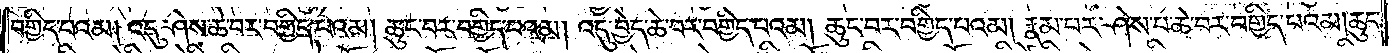བགྱིད་པའམ། འདུ་ཤེས་ཆེ་བར་བགྱིད་པའམ། ཆུང་བར་བགྱིད་པའམ། འདུ་བྱེད་ཆེ་བར་བགྱིད་པའམ། ཆུང་བར་བགྱིད་པའམ། རྣམ་པར་ཤེས་པ་ཆེ་བར་བགྱིད་པའམ། ཆུང་
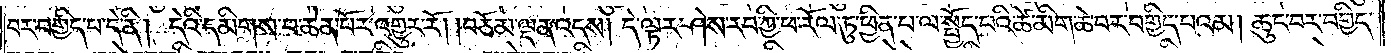བར་བགྱིད་པ་དེ་ནི། དེའི་དམིགས་པ་ཆེན་པོར་འགྱུར་རོ། །བཅོམ་ལྡན་འདས། དེ་ལྟར་ཤེས་རབ་ཀྱི་ཕ་རོལ་ཏུ་ཕྱིན་པ་ལ་སྤྱོད་པའི་ཚེ་མིག་ཆེ་བར་བགྱིད་པའམ། ཆུང་བར་བགྱིད་
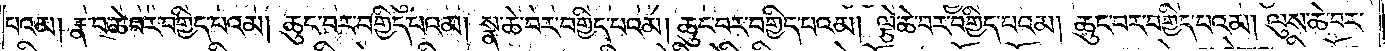པའམ། རྣ་བ་ཆེ་བར་བགྱིད་པའམ། ཆུང་བར་བགྱིད་པའམ། སྣ་ཆེ་བར་བགྱིད་པའམ། ཆུང་བར་བགྱིད་པའམ། ལྕེ་ཆེ་བར་བགྱིད་པའམ། ཆུང་བར་བགྱིད་པའམ། ལུས་ཆེ་བར་
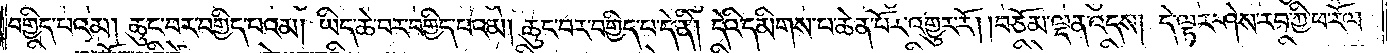བགྱིད་པའམ། ཆུང་བར་བགྱིད་པའམ། ཡིད་ཆེ་བར་བགྱིད་པའམ། ཆུང་བར་བགྱིད་པ་དེ་ནི། དེའི་དམིགས་པ་ཆེན་པོར་འགྱུར་རོ། །བཅོམ་ལྡན་འདས། དེ་ལྟར་ཤེས་རབ་ཀྱི་ཕ་རོལ་
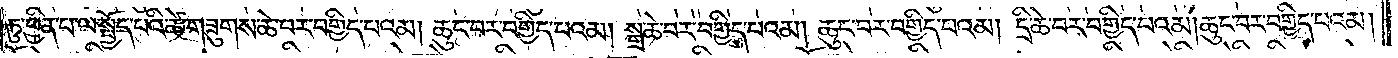ཏུ་ཕྱིན་པ་ལ་སྤྱོད་པའི་ཚེ་གཟུགས་ཆེ་བར་བགྱིད་པའམ། ཆུང་བར་བགྱིད་པའམ། སྒྲ་ཆེ་བར་བགྱིད་པའམ། ཆུང་བར་བགྱིད་པའམ། དྲི་ཆེ་བར་བགྱིད་པའམ། ཆུང་བར་བགྱིད་པའམ།
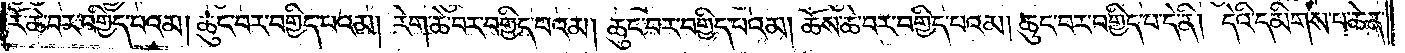རོ་ཆེ་བར་བགྱིད་པའམ། ཆུང་བར་བགྱིད་པའམ། རེག་ཆེ་བར་བགྱིད་པའམ། ཆུང་བར་བགྱིད་པའམ། ཆོས་ཆེ་བར་བགྱིད་པའམ། ཆུང་བར་བགྱིད་པ་དེ་ནི། དེའི་དམིགས་པ་ཆེན་
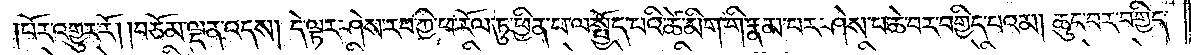པོར་འགྱུར་རོ། །བཅོམ་ལྡན་འདས། དེ་ལྟར་ཤེས་རབ་ཀྱི་ཕ་རོལ་ཏུ་ཕྱིན་པ་ལ་སྤྱོད་པའི་ཚེ་མིག་གི་རྣམ་པར་ཤེས་པ་ཆེ་བར་བགྱིད་པའམ། ཆུང་བར་བགྱིད་
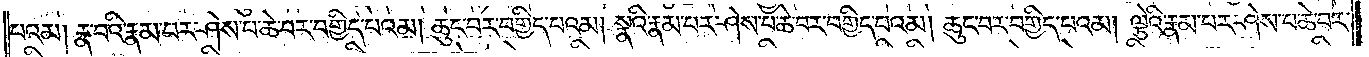པའམ། རྣ་བའི་རྣམ་པར་ཤེས་པ་ཆེ་བར་བགྱིད་པའམ། ཆུང་བར་བགྱིད་པའམ། སྣའི་རྣམ་པར་ཤེས་པ་ཆེ་བར་བགྱིད་པའམ། ཆུང་བར་བགྱིད་པའམ། ལྕེའི་རྣམ་པར་ཤེས་པ་ཆེ་བར་
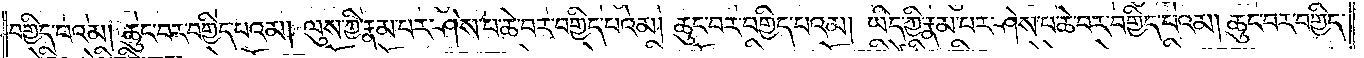བགྱིད་པའམ། ཆུང་བར་བགྱིད་པའམ། ལུས་ཀྱི་རྣམ་པར་ཤེས་པ་ཆེ་བར་བགྱིད་པའམ། ཆུང་བར་བགྱིད་པའམ། ཡིད་ཀྱི་རྣམ་པར་ཤེས་པ་ཆེ་བར་བགྱིད་པའམ། ཆུང་བར་བགྱིད་
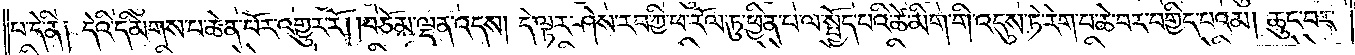པ་དེ་ནི༑ དེའི་དམིགས་པ་ཆེན་པོར་འགྱུར་རོ། །བཅོམ་ལྡན་འདས། དེ་ལྟར་ཤེས་རབ་ཀྱི་ཕ་རོལ་ཏུ་ཕྱིན་པ་ལ་སྤྱོད་པའི་ཚེ་མིག་གི་འདུས་ཏེ་རེག་པ་ཆེ་བར་བགྱིད་པའམ། ཆུང་བར་
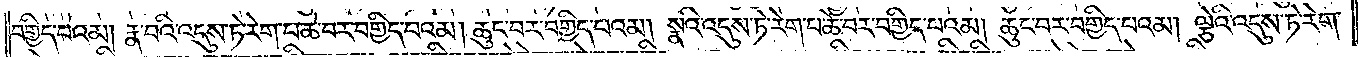བགྱིད་པའམ། རྣ་བའི་འདུས་ཏེ་རེག་པ་ཆེ་བར་བགྱིད་པའམ། ཆུང་བར་བགྱིད་པའམ། སྣའི་འདུས་ཏེ་རེག་པ་ཆེ་བར་བགྱིད་པའམ། ཆུང་བར་བགྱིད་པའམ། ལྕེའི་འདུས་ཏེ་རེག་
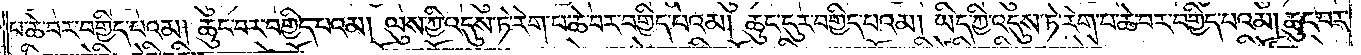པ་ཆེ་བར་བགྱིད་པའམ། ཆུང་བར་བགྱིད་པའམ། ལུས་ཀྱི་འདུས་ཏེ་རེག་པ་ཆེ་བར་བགྱིད་པའམ། ཆུང་ངུར་བགྱིད་པའམ། ཡིད་ཀྱི་འདུས་ཏེ་རེག་པ་ཆེ་བར་བགྱིད་པའམ། ཆུང་བར་
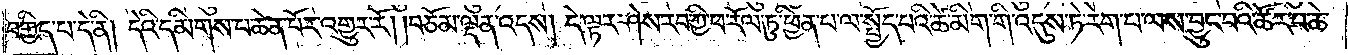བགྱིད་པ་དེ་ནི། དེའི་དམིགས་པ་ཆེན་པོར་འགྱུར་རོ། །བཅོམ་ལྡན་འདས། དེ་ལྟར་ཤེས་རབ་ཀྱི་ཕ་རོལ་ཏུ་ཕྱིན་པ་ལ་སྤྱོད་པའི་ཚེ་མིག་གི་འདུས་ཏེ་རེག་པ་ལས་བྱུང་བའི་ཚོར་བ་ཆེ་
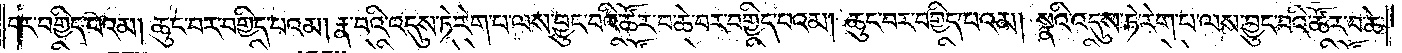བར་བགྱིད་པའམ། ཆུང་བར་བགྱིད་པའམ། རྣ་བའི་འདུས་ཏེ་རེག་པ་ལས་བྱུང་བའི་ཚོར་བ་ཆེ་བར་བགྱིད་པའམ། ཆུང་བར་བགྱིད་པའམ། སྣའི་འདུས་ཏེ་རེག་པ་ལས་བྱུང་བའི་ཚོར་བ་ཆེ་
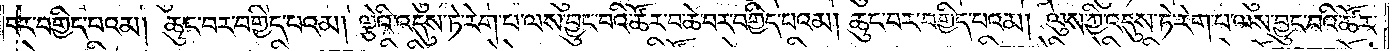བར་བགྱིད་པའམ། ཆུང་བར་བགྱིད་པའམ། ལྕེའི་འདུས་ཏེ་རེག་པ་ལས་བྱུང་བའི་ཚོར་བ་ཆེ་བར་བགྱིད་པའམ། ཆུང་བར་བགྱིད་པའམ། ལུས་ཀྱི་འདུས་ཏེ་རེག་པ་ལས་བྱུང་བའི་ཚོར་
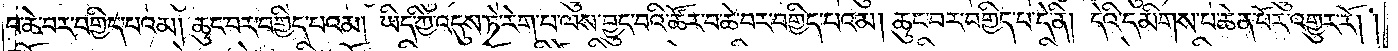བ་ཆེ་བར་བགྱིད་པའམ། ཆུང་བར་བགྱིད་པའམ། ཡིད་ཀྱི་འདུས་ཏེ་རེག་པ་ལས་བྱུང་བའི་ཚོར་བ་ཆེ་བར་བགྱིད་པའམ། ཆུང་བར་བགྱིད་པ་དེ་ནི། དེའི་དམིགས་པ་ཆེན་པོར་འགྱུར་རོ། །
